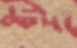ཚེས་
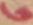༦
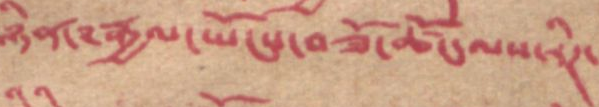ཉིན་༸རྒྱལ་ཡོངས་བཟོ་ཚོང་ལས་རིཌ་
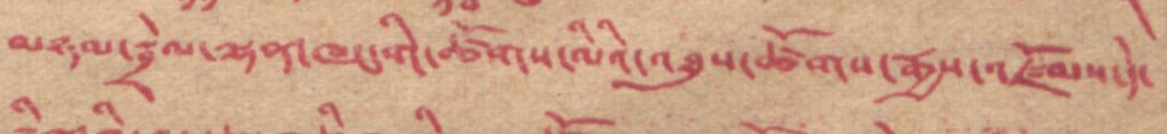མཉམ་སྦྲེལ་ལྷན་ཁང་གི་ཚོགས་མིའི་འཐུས་ཚོགས་རྒྱས་འཛོམས་དེ་
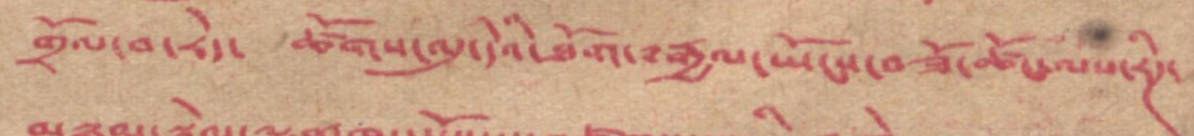གྲོལ་བ་རེད། ཚོགས་ལུ་དེའི་ཐོག་༸རྒྱལ་ཡོངས་བཟོ་ཚོང་ལས་རིཌ་
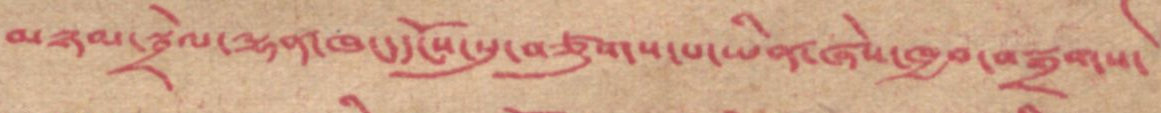མཉམ་སྦྲེལ་ལྷན་ཁང་དངོས་སུ་བཙུགས་པ་ཡིན་ཞེས་ཁྱབ་བསྒྲགས་
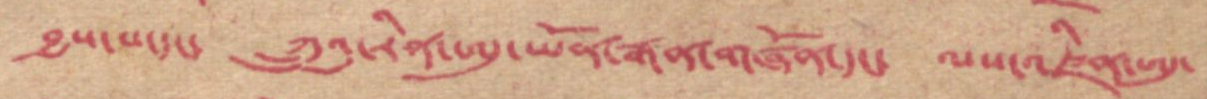བྱས་པ་དང་ ཀྲུའུ་རིན་ཨུ་ཡོན་རྒན་གཞོན་དང་ ལས་འཛིན་ཨུ་
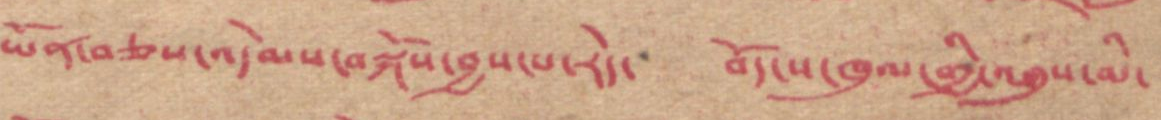ཡོན་བཅས་འདེབས་བསྐོས་བྱས་པ་རེད བོད་ས་ཁུལ་གྱི་འཐུས་མི་
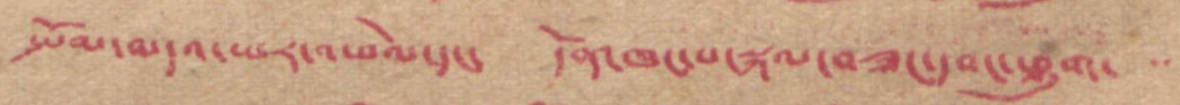སྤོམ་མདའ་ཡར་འཕེལ་དང་ དོན་ཁངས་སྐལ་བཟང་དནང་ཕྱུག་་
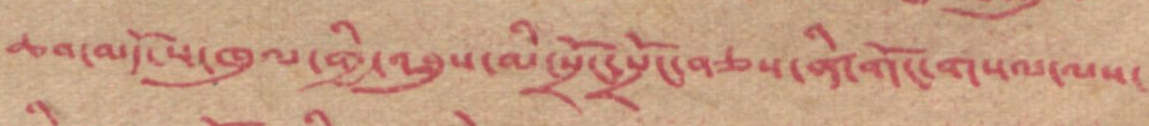ཆབ་མདོ་ས་ཁུལ་གྱི་འཐུས་མི་སྲོང་སྲོང་བཅས་ནི་གོང་གསལ་ལས་
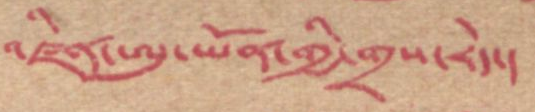འཛིན་ཨུ་ཡོན་གྱི་གྲས་རེད།
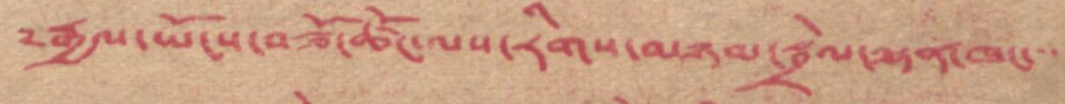༸རྒྱལ་ཡོངས་བཟོ་ཚོང་ལས་རིགས་མཉམ་སྦྲེལ་ལྷན་ཁང་་་
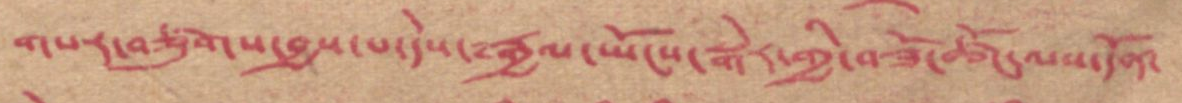གསར་བཙུགས་བྱས་པ་དེས་༸རྒྱལ་ཡོངས་སྒེར་གྱི་བཟོ་ཚོང་ལས་དོན་
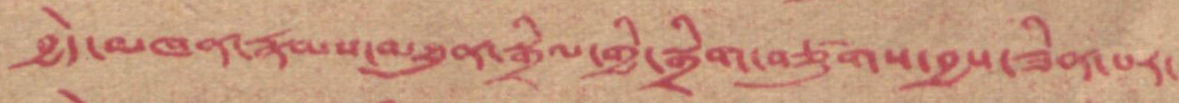བྱེད་མཁན་རྣམས་མཐུན་སྒྲིལ་གྱི་སྒྲིག་བཙུགས་བྱས་ཟིན་པར་
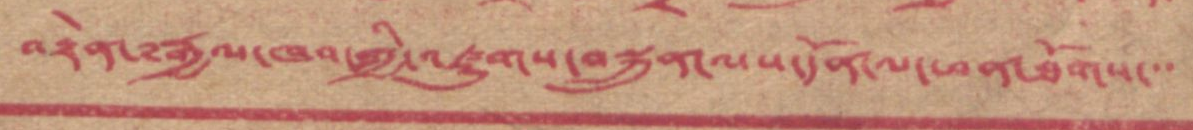བརྟེན་༸རྒྱལ་ཁབ་ཀྱི་འཛུགས་བསྐྲུན་ལས་དོན་ལ་ཕན་ཐོགས་་་
